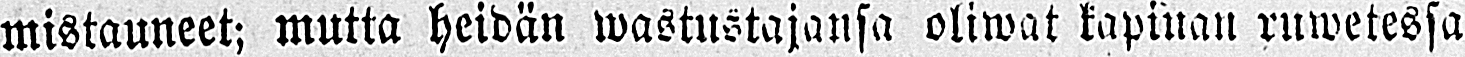mistauneet; mutta heidän wastustajansa oliwat kapinan ruwetessa
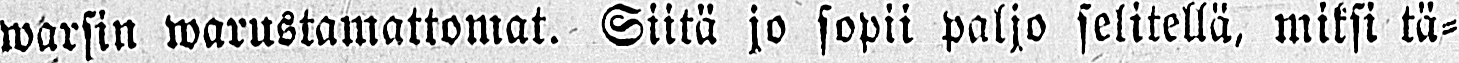warsin warustamattomat. Siitä jo sopii paljo selitellä, miksi tä-
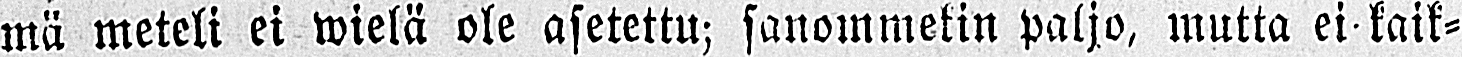mä meteli ei wielä ole asetettu; sanommekin paljo, mutta ei kaik-
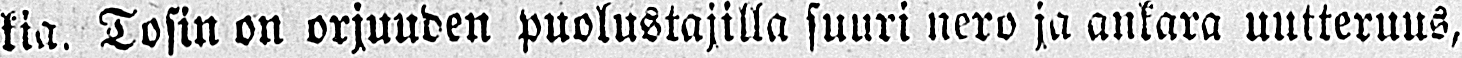kia. Tosin on orjuuden puolustajilla suuri nero ja ankara uutteruus,
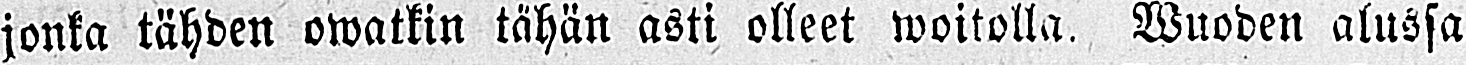jonka tähden owatkin tähän asti olleet woitolla. Wuoden alussa
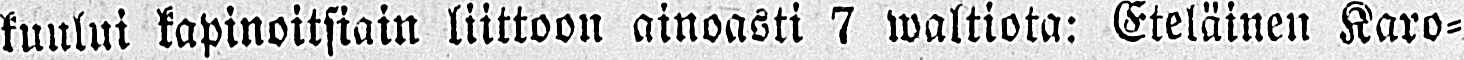kuului kapinoitsiain liittoon ainoasti 7 waltiota: Eteläinen Karo-
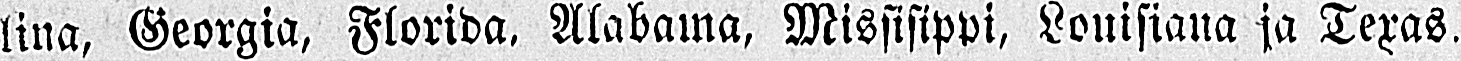lina, Georgia, Florida, Alabama, Missisippi, Louisiana ja Texas.
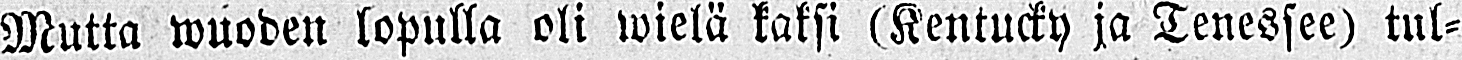Mutta wuoden lopulla oli wielä kaksi (Kentucky ja Tenessee) tul-
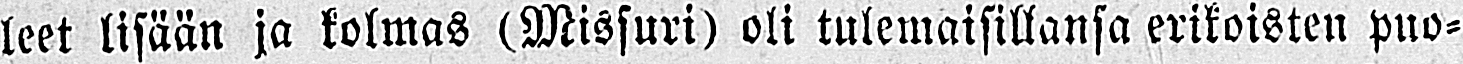leet lisään ja kolmas (Missuri) oli tulemaisillansa erikoisten puo-
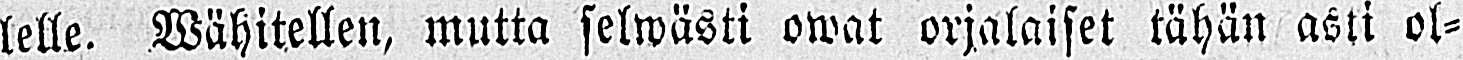lelle. Wähitellen, mutta selwästi owat orjalaiset tähän asti ol-
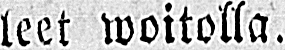leet woitolla.
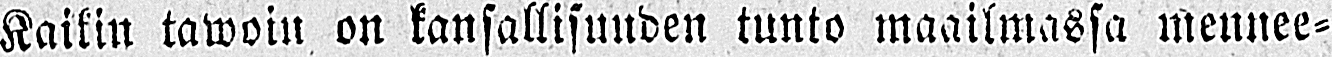Kaikin tawoin on kansallisuuden tunto maailmassa mennee-
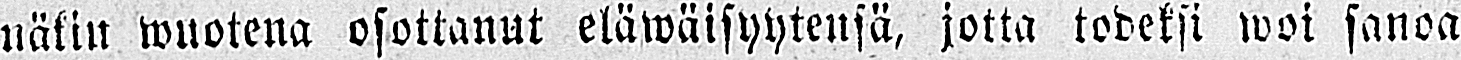näkin wuotena osottanut eläwäisyytensä, jotta todeksi woi sanoa
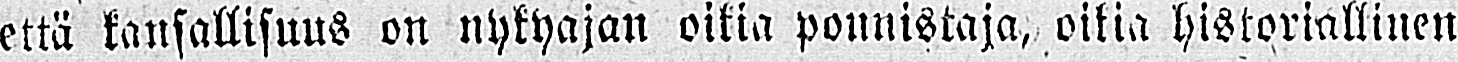että kansallisuus on nykyajan oikia ponnistaja, oikia historiallinen
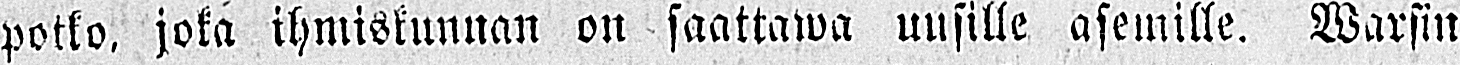potko, joka ihmiskunnan on saattawa uusille asemille. Warsin
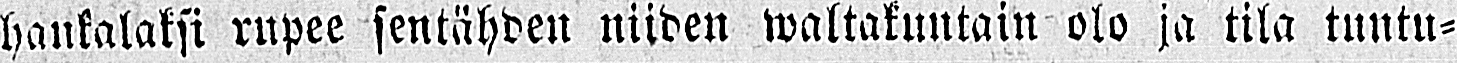hankalaksi rupee sentähden niiden waltakuntain olo ja tila tuntu-
